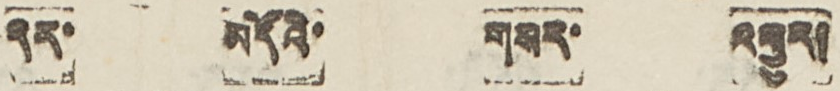དར་ མདོའི་ གསར་ འགྱུར།
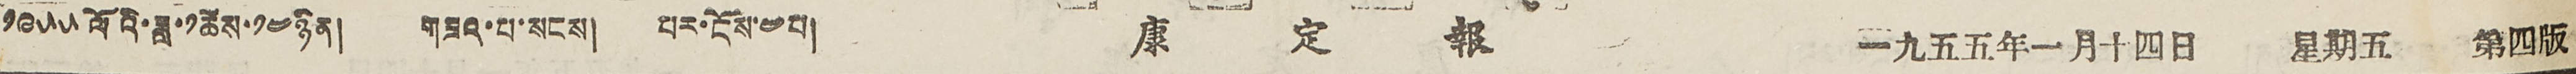༡༩༥༥ལོའི་ཟླ་༡ཚེས་༡༤ཉིན། གཟའ་བ་སངས། པར་ངོས་༤པ། 康 定 報 一九五五年一月十四日 星期五 第四版
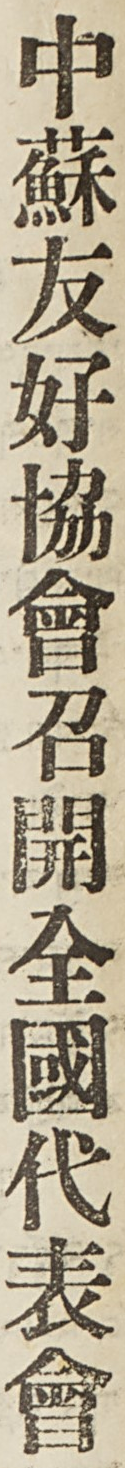中蘇友好協會召開全國代表會
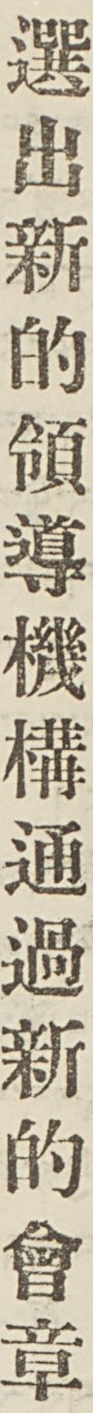選出新的領導機構通過新的會章
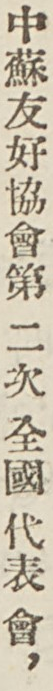中蘇友好協會第 二次 全國 代表 會，
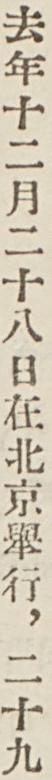去年十二月二十八日在北京舉行，二十九
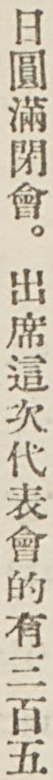日圓滿閉會。出席這次代表會的有三百五
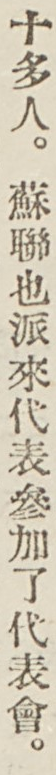十多人。蘇聯也派來代表參加了代表會。
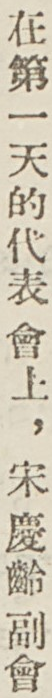在第一天的代表會上，宋慶齡副會
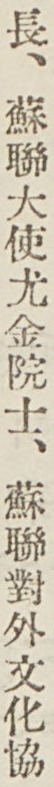長、蘇聯大使尤金院士、蘇聯對外文化協
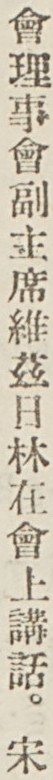會理事會副主席維茲日林在會上講話。宋
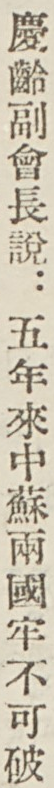慶齡副會長說：五年來中蘇兩國牢不可破
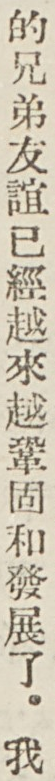的兄弟友誼已經越來越鞏固和發展了。我
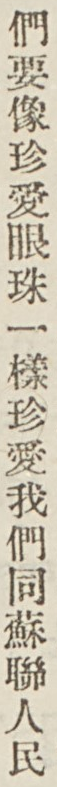們要像珍愛眼珠一樣珍愛我們同蘇聯人民
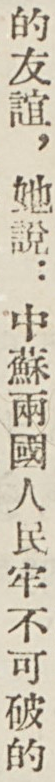的友誼，她說：中蘇兩國人民牢不可破的
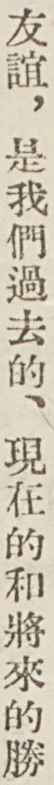友誼，使我們過去的、現在的和將來的勝
